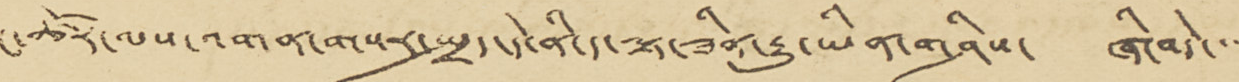ང་ཚོར་ལས་འགན་གསར་སྤྲད་དེ་ནི་ད་ལྟ་ཟིན་རྒྱུ་ཡིན་གཤིས་ ཞི་བདེ་་་་
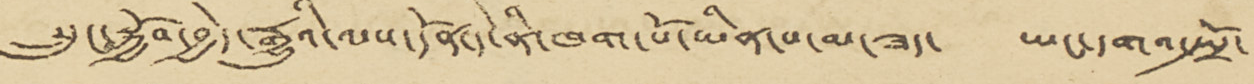སྲུང་སྐྱོབ་བྱེད་རྒྱུའི་ལས་དོན་དེ་ནི་ཁག་པོ་ཡིན་པ་མ་ཟད་ ཡང་དགའ་སྤྲོ་
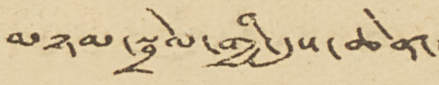མཉམ་སྦྲེལ་གྱི་དུས་ཆེན་ཨང་
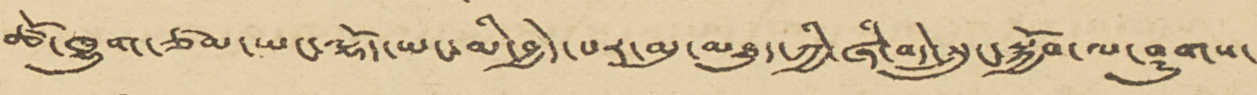ཚོ་ཁྱུག་ཙམ་ཡང་ལྷོད་ཡང་མི་བྱེད་པར་མུ་མཐུད་ཀྱི་ཞི་བདེ་སྲུང་སྐྱོབ་ལ་ཤུགས་
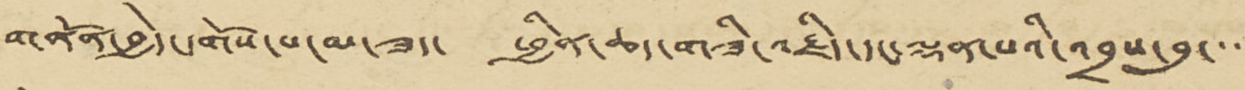གནོན་བྱེད་དགོས་པ་མ་ཟད་ ཕྱིན་ཆད་གཟི་བརྗིད་ལྡན་པའི་འབྲས་བུ་་་་
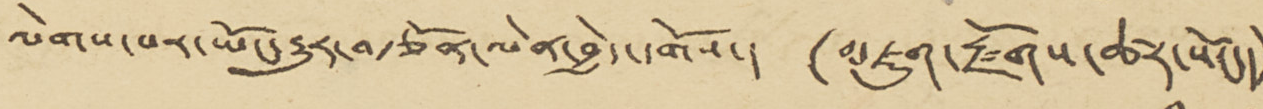ལེགས་པར་ཡོང་རྒྱུར་བརྩོན་ལེན་བྱེད་དགོས་། (མཇུག་རྫོགས་ཚར་སོང་།)
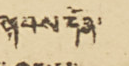སྐབས་དོན་
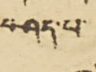བཤད་པ་
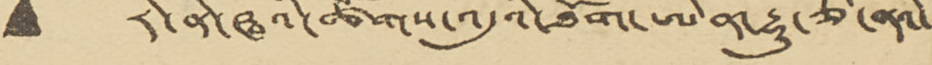• རེ་ནེ་ཝའི་ཚོགས་འདུའི་ཐོག་ཨིན་རྷུ་ཅི་ནའི་
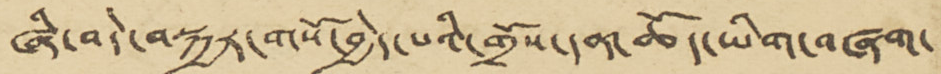ཞི་བདེ་བསྐྱར་གསོ་བྱེདཔའི་གྲོས་དན་ཆོད་ཡིག་བཞག་
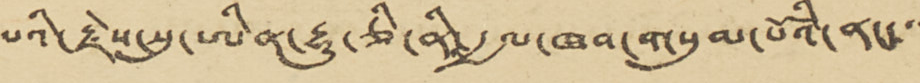པའི་རྗེས་སུ་ཨིན་རྷུ་ཅི་ནི་རྒྱལ་ཁབ་གསུམ་པོའི་ནང་་་་
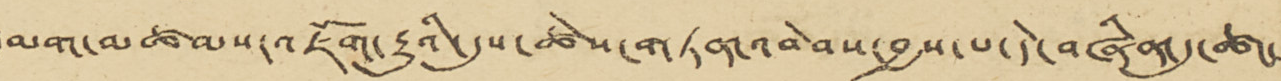དམག་མཚམས་འཇོག་རྒྱུའི་དུས་ཚེས་གཏན་འབེབས་བྱས་པ་དེ་བཞིན་དུ་ཚང་
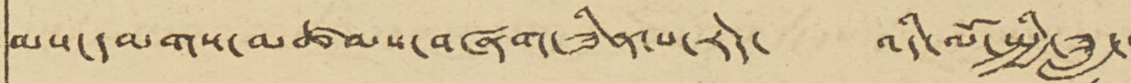མས་དམགས་མཚམས་བཞག་ཟིན་པ་རེད་ འདི་ལོ་སྤྱི་ཟླ་
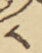༨
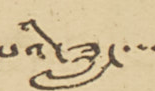པའི་ཟླ་་་་་
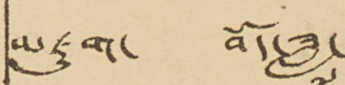མཇུག་ བོད་ཟླ་
